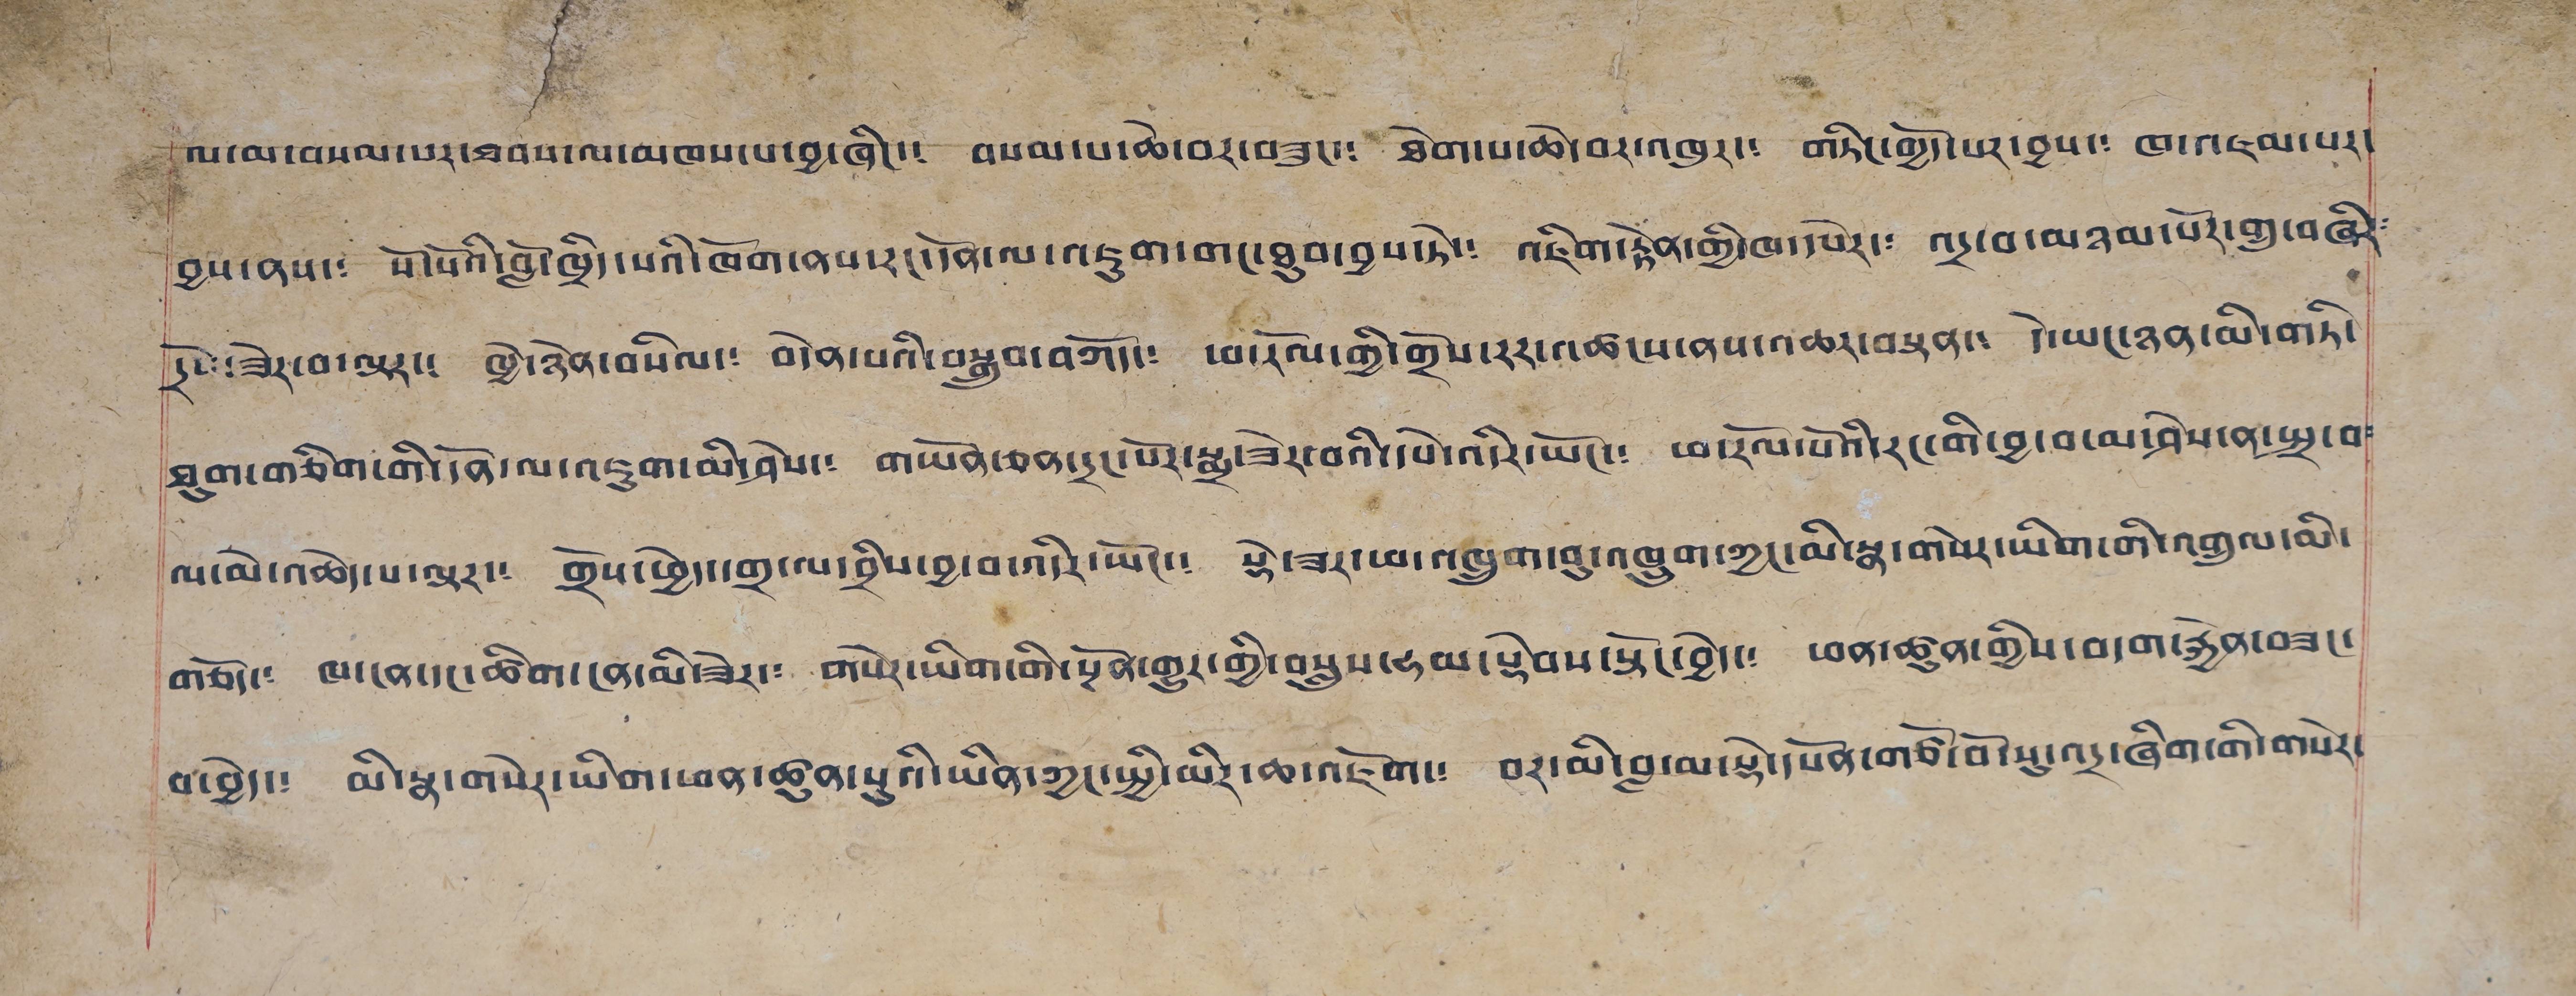ལ་མ་བསམ་པར་ཐབས་ལ་མཁས་པ་བྱ་ཞིང་༴ བསམ་པ་ཆེ་བར་བཟུང་༴ ཐེག་པ་ཆེ་བར་འཁུར་༴ གཏིང་གྱོད་པར་བྱས་༴ ཁ་འཇམ་པར་
བྱས་ནས་༴ སོ་སོའི་བློ་ཁྲིད་པའི་ཁོག་ནས་རང་དོན་ལ་འཇུག་གང་ཐུབ་བྱས་ཏེ་༴ འཇིག་རྟེན་གྱི་ཁ་དཔེར་༴ འདྲ་བ་མཉམ་པོར་གྲུ་བཞིར༴
དྲོས་ཟེར་བ་ལྟར་༴ ཁྱེ་ཉེན་བསིལ་༴ བདེན་པའི་བསྒྲུབ་བཀོད་༴ ཕ་རོལ་གྱི་གྲོས་རར་འཚངས་ནས་འཆར་བསྟན་༴ དེ་ཡང་ཉན་མི་གཏི་
ཐུག་གཅིག་གི་དོན་ལ་འཇུག་མི་ཤེས་༴ གཡོན་ཅན་དྲང་པོར་སྨྲ་ཟེར་བའི་དཔེ་འདིར་ཡོང་༴ ཕ་རོལ་པོའི་རང་གི་བྱ་བ་མ་ཤེས་ན་སྤྲ་བ༴
ལ་མེ་འཆེད་པ་ལྟར་༴ གྲོས་ཕྱེད་དགྲ་ལ་བྲིས་བྱ་བ་གདིར་ཡོང་༴ སྡེ་ཟར་ཕ་འཁྲུག་བུ་འཁྲུག་ཀྱང་མི་སྣ་གསེར་ཡིག་གི་འགྲུལ་མི་
གཅོད་༴ ཁ་ངན་དང་ཚིག་ངན་མི་ཟེར་༴ གསེར་ཡིག་གི་སྔོན་གྱུར་གྱི་བསླུས་ཧམ་སྡེབས་སྟོང་བྱེད་༴ ཕན་ཚུན་གྱིས་བདག་རྐྱེན་བཟང་
བ་བྱེད་༴ མི་སྣ་གསེར་ཡིག་ཕན་ཚུན་སུའི་ཡིན་ཀྱང་སྤྱི་མིར་ཆ་འཇོག་༴ བར་མི་བླ་མ་སྟེ་དཔོན་གཙོ་བོ་སུ་འདྲ་ཞིག་གི་གསེར་
